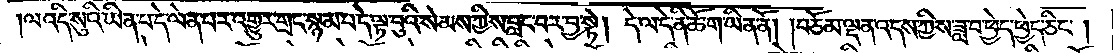ལ་འདི་སུའི་ཡིན་པ་དེ་ལེན་པར་འགྱུར་གྲང་སྙམ་པ་དེ་ལྟ་བུའི་སེམས་ཀྱིས་བླང་བར་བྱ་སྟེ། དེ་ལ་དེ་ནི་ཆོ་ག་ཡིན་ནོ། །བཅོམ་ལྡན་འདས་ཀྱིས་ཟླ་བ་ཕྱེད་ཕྱེད་ཅིང༌།
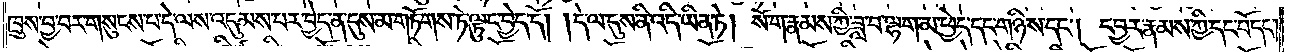ཁྲུས་བྱ་བར་གསུངས་པ་དེ་ལས་འདུམས་པར་བྱེད་ན་དུས་མ་གཏོགས་ཏེ་ལྟུང་བྱེད་དོ། །དེ་ལ་དུས་ནི་འདི་ཡིན་ཏེ། སོ་ག་རྣམས་ཀྱི་ཟླ་བ་ལྷག་མ་ཕྱེད་དང་གཉིས་དང༌། དབྱར་རྣམས་ཀྱི་དང་པོ་དང༌།
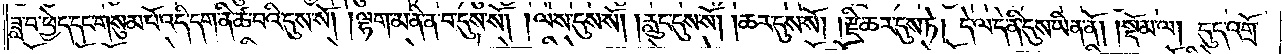ཟླ་བ་ཕྱེད་དང་གསུམ་པོ་འདི་དག་ནི་ཚ་བའི་དུས་སོ། །ལྷག་མ་ནི་ན་བ་དུས་སོ། །ལས་དུས་སོ། །རླུང་དུས་སོ། །ཆར་དུས་སོ། །རྫི་ཆར་དུས་ཏེ། དེ་ལ་དེ་ནི་དུས་ཡིན་ནོ།    །སྡོམ་ལ། དུད་འགྲོ་
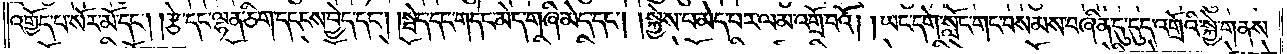འགྱོད་པ་སོར་མོ་དང༌། །རྩེ་དང་ལྷན་ཅིག་དངངས་བྱེད་དང༌། །སྦེད་དང་གདེང་མེད་གཞི་མེད་དང༌། །སྐྱེས་པ་མེད་པར་ལམ་འགྲོ་བའོ། །ཡང་དགེ་སློང་གང་བསམས་བཞིན་དུ་དུད་འགྲོའི་སྐྱེ་གནས་
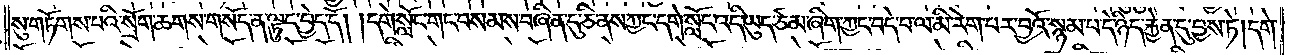སུ་གཏོགས་པའི་སྲོག་ཆགས་གསོད་ན་ལྟུང་བྱེད་དོ། །དགེ་སློང་གང་བསམས་བཞིན་དུ་ཅི་ནས་ཀྱང་དགེ་སློང་འདི་ཡུད་ཙམ་ཞིག་ཀྱང་བདེ་བ་ལ་མི་རེག་པར་བྱའོ་སྙམ་པ་དེ་ཉིད་རྐྱེན་དུ་བྱས་ཏེ། དགེ་
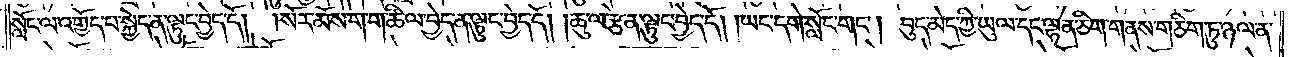སློང་ལ་འགྱོད་པ་སྐྱེད་ན་ལྟུང་བྱེད་དོ། །སོར་མོས་ག་ག་ཚིལ་བྱེད་ན་ལྟུང་བྱེད་དོ། །ཆུ་ལ་རྩེ་ན་ལྟུང་བྱེད་དོ། །ཡང་དགེ་སློང་གང༌། བུད་མེད་ཀྱི་ཡུལ་དང་ལྷན་ཅིག་གནས་གཅིག་ཏུ་ཉལ་ན་
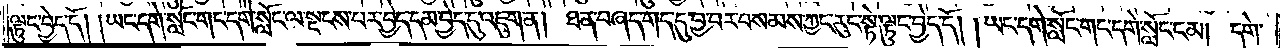ལྟུང་བྱེད་དོ། །ཡང་དགེ་སློང་གང་དགེ་སློང་ལ་སྡངས་པར་བྱེད་དམ་བྱེད་དུ་འཇུག་ན། ཐ་ན་བཞད་གད་དུ་བྱ་བར་བསམས་ཀྱང་རུང་སྟེ་ལྟུང་བྱེད་དོ། །ཡང་དགེ་སློང་གང་དགེ་སློང་ངམ། དགེ་
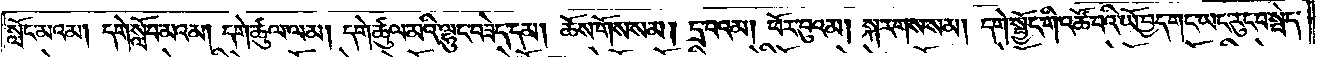སློང་མའམ། དགེ་སློབ་མའམ། དགེ་ཚུལ་ལམ། དགེ་ཚུལ་མའི་ལྷུང་བཟེད་དམ། ཆོས་གོས་སམ། དྲ་བའམ། ཕོར་བུའམ། སྐ་རགས་སམ། དགེ་སྦྱོང་གི་འཚོ་བའི་ཡོ་བྱད་གང་ཡང་རུང་བ་སྦེད་
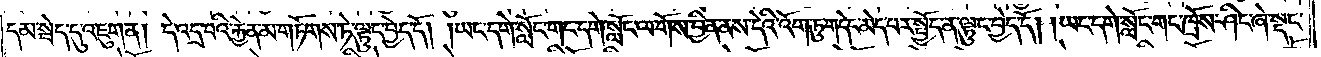དམ་སྦེད་དུ་འཇུག་ན། དེ་འདྲ་བའི་རྐྱེན་མ་གཏོགས་ཏེ་ལྟུང་བྱེད་དོ། །ཡང་དགེ་སློང་གང་དགེ་སློང་ལ་གོས་བྱིན་ནས་དེའི་འོག་ཏུ་གདེང་མེད་པར་སྤྱོད་ན་ལྟུང་བྱེད་དོ། །ཡང་དགེ་སློང་གང་ཁྲོས་ཤིང་ཞེ་སྡང་
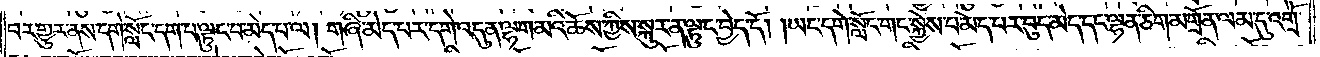བར་གྱུར་ནས་དགེ་སློང་དག་པ་ལྟུང་བ་མེད་པ་ལ། གཞི་མེད་པར་དགེ་འདུན་ལྷག་མའི་ཆོས་ཀྱིས་སྐུར་ན་ལྟུང་བྱེད་དོ། །ཡང་དགེ་སློང་གང་སྐྱེས་པ་མེད་པར་བུད་མེད་དང་ལྷན་ཅིག་མགྲོན་ལམ་དུ་འགྲོ་
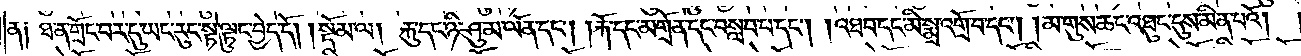ན༑ ཐ་ན་གྲོང་བར་དུ་ཡང་རུང་སྟེ་ལྟུང་བྱེད་དོ།    །སྡོམ་ལ། རྐུ་དང་ཉི་ཤུ་མ་ལོན་དང༌། །རྐོ་དང་མགྲོན་དང་བསླབ་པ་དང༌། །འཐབ་དང་མི་སྨྲ་འགྲོ་བ་དང༌། །མ་གུས་ཆང་འཐུང་དུས་མིན་པའོ། །
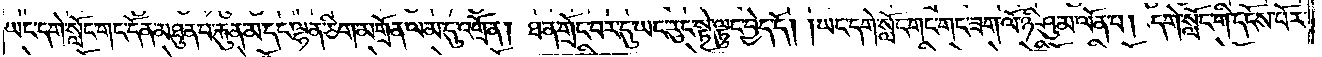ཡང་དགེ་སློང་གང་དོན་མཐུན་པ་རྐུན་མ་དང་ལྷན་ཅིག་མགྲོན་ལམ་དུ་འགྲོ་ན། ཐ་ན་གྲོང་བར་དུ་ཡང་རུང་སྟེ་ལྟུང་བྱེད་དོ། །ཡང་དགེ་སློང་གང་གང་ཟག་ལོ་ཉི་ཤུ་མ་ལོན་པ། དགེ་སློང་གི་དངོས་པོར་
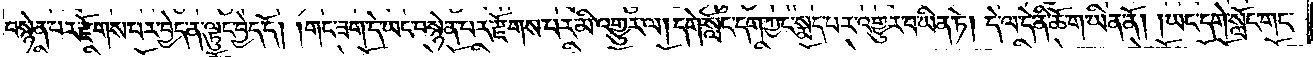བསྙེན་པར་རྫོགས་པར་བྱེད་ན་ལྟུང་བྱེད་དོ། །གང་ཟག་དེ་ཡང་བསྙེན་པར་རྫོགས་པར་མི་འགྱུར་ལ། དགེ་སློང་དག་ཀྱང་སྨད་པར་འགྱུར་བ་ཡིན་ཏེ། དེ་ལ་དེ་ནི་ཆོ་ག་ཡིན་ནོ། །ཡང་དགེ་སློང་གང་
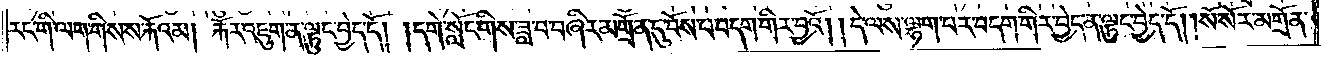རང་གི་ལག་གིས་ས་རྐོའམ། རྐོར་འཇུག་ན་ལྟུང་བྱེད་དོ། །དགེ་སློང་གིས་ཟླ་བ་བཞིར་མགྲོན་དུ་བོས་པ་བདག་གིར་བྱའོ། །དེ་ལས་ལྷག་པར་བདག་གིར་བྱེད་ན་ལྟུང་བྱེད་དོ། །སོ་སོར་མགྲོན་
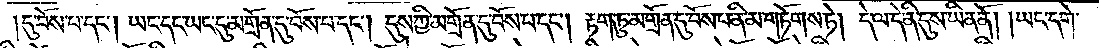།དུ་བོས་པ་དང༌། ཡང་དང་ཡང་དུ་མགྲོན་དུ་བོས་པ་དང༌། དུས་ཀྱི་མགྲོན་དུ་བོས་པ་དང༌། རྟག་ཏུ་མགྲོན་དུ་བོས་པ་ནི་མ་གཏོགས་ཏེ། དེ་ལ་དེ་ནི་དུས་ཡིན་ནོ། །ཡང་དགེ་
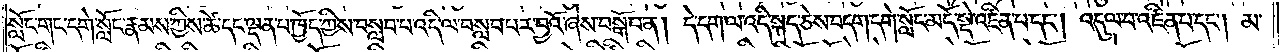སློང་གང་དགེ་སློང་རྣམས་ཀྱིས་ཚེ་དང་ལྡན་པ་ཁྱོད་ཀྱིས་བསླབ་པ་འདི་ལ་བསླབ་པར་བྱའོ་ཞེས་བསྒོ་བ་ན། དེ་དག་ལ་འདི་སྐད་ཅེས་བདག་དགེ་སློང་མདོ་སྡེ་འཛིན་པ་དང༌། འདུལ་བ་འཛིན་པ་དང༌། མ་
